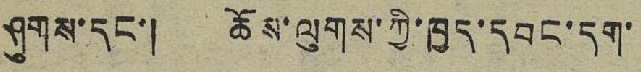ཤུགས་དང་། ཆོས་ལུགས་ཀྱི་ཁྱད་དབང་དག་
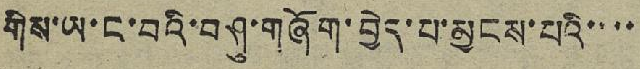གིས་ཡ་ང་བའི་བཤུ་གཞོག་བྱེད་པ་མྱངས་པའི་་་་
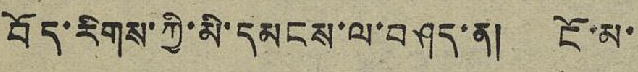བོད་རིགས་ཀྱི་མི་དམངས་ལ་བཤད་ན། ངོ་མ་
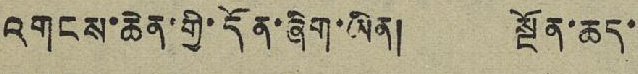འགངས་ཆེན་གྱི་དོན་ཞིག་ཡིན། སྔོན་ཆད་
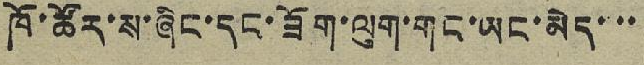ཁོ་ཚོར་ས་ཞིང་དང་ཟོག་ལུག་གང་ཡང་མེད་་་
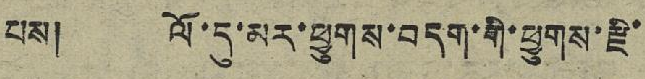པས། ལོ་དུ་མར་ཕྱུགས་བདག་གི་ཕྱུགས་རྫི་
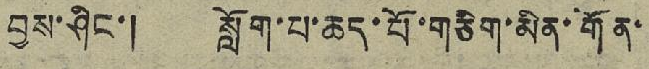བྱས་ཤིང་། སློག་པ་ཆད་པོ་གཅིག་མིན་གོན་
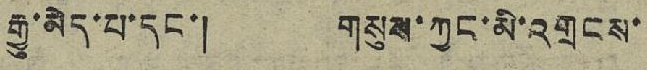རྒྱུ་མེད་པ་དང་། གསུས་ཀྱང་མི་འགྲངས་
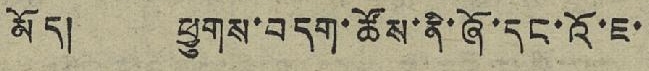མོད། ཕྱུགས་བདག་ཚོས་ནི་ཞོ་དང་འོ་ཇ་
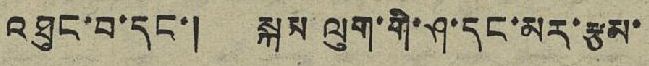འཐུང་བ་དང་། སྐམ་ལུག་གི་ཤ་དང་མར་རྩམ་
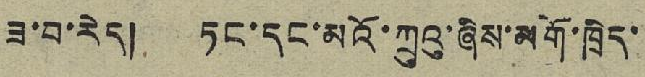ཟ་བ་རེད། ཏང་དང་མའོ་ཀྲུའུ་ཞིས་མགོ་ཁྲིད་
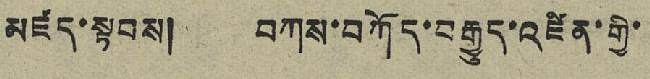མཛད་སྟབས། བཀས་བཀོད་བརྒྱུད་འཛིན་གྱི་
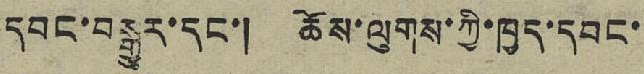དབང་བསྒྱུར་དང་། ཆོས་ལུགས་ཀྱི་ཁྱད་དབང་
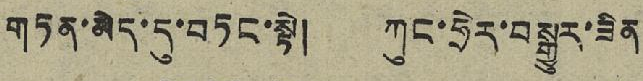གཏན་མེད་དུ་བཏང་སྟེ། ཀུང་ཧྲེར་བསྒྱུར་ཟིན
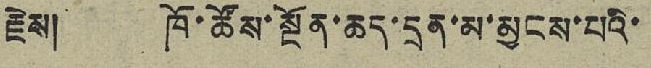རྗེས། ཁོ་ཚོས་སྔོན་ཆད་དྲན་མ་མྱངས་པའི་
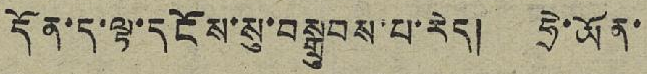དོན་ད་ལྟ་དངོས་སུ་བསྒྲུབས་པ་རེད། ཧྲེ་ཡོན་
